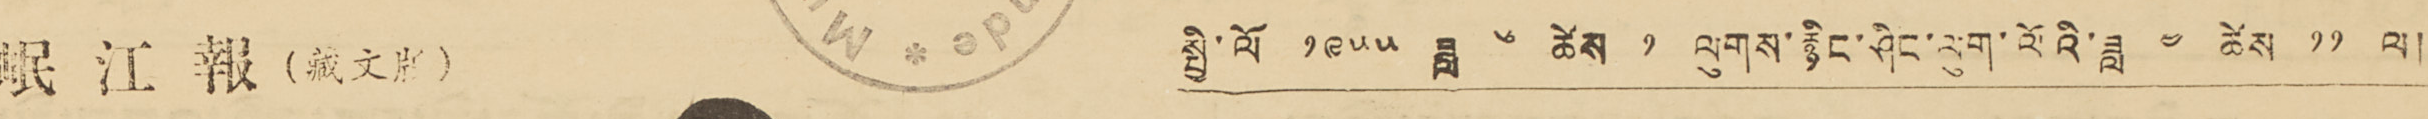岷 江 報 （藏文版） སྤྱི་ལོ་ ༡༩༥༥ ཟླ ༦ ཚེས ༡ ལུགས་རྙིན་ཤིང་ལུག་ལོའི་ཟླ ༤ ཚེས ༡༡ ལ།
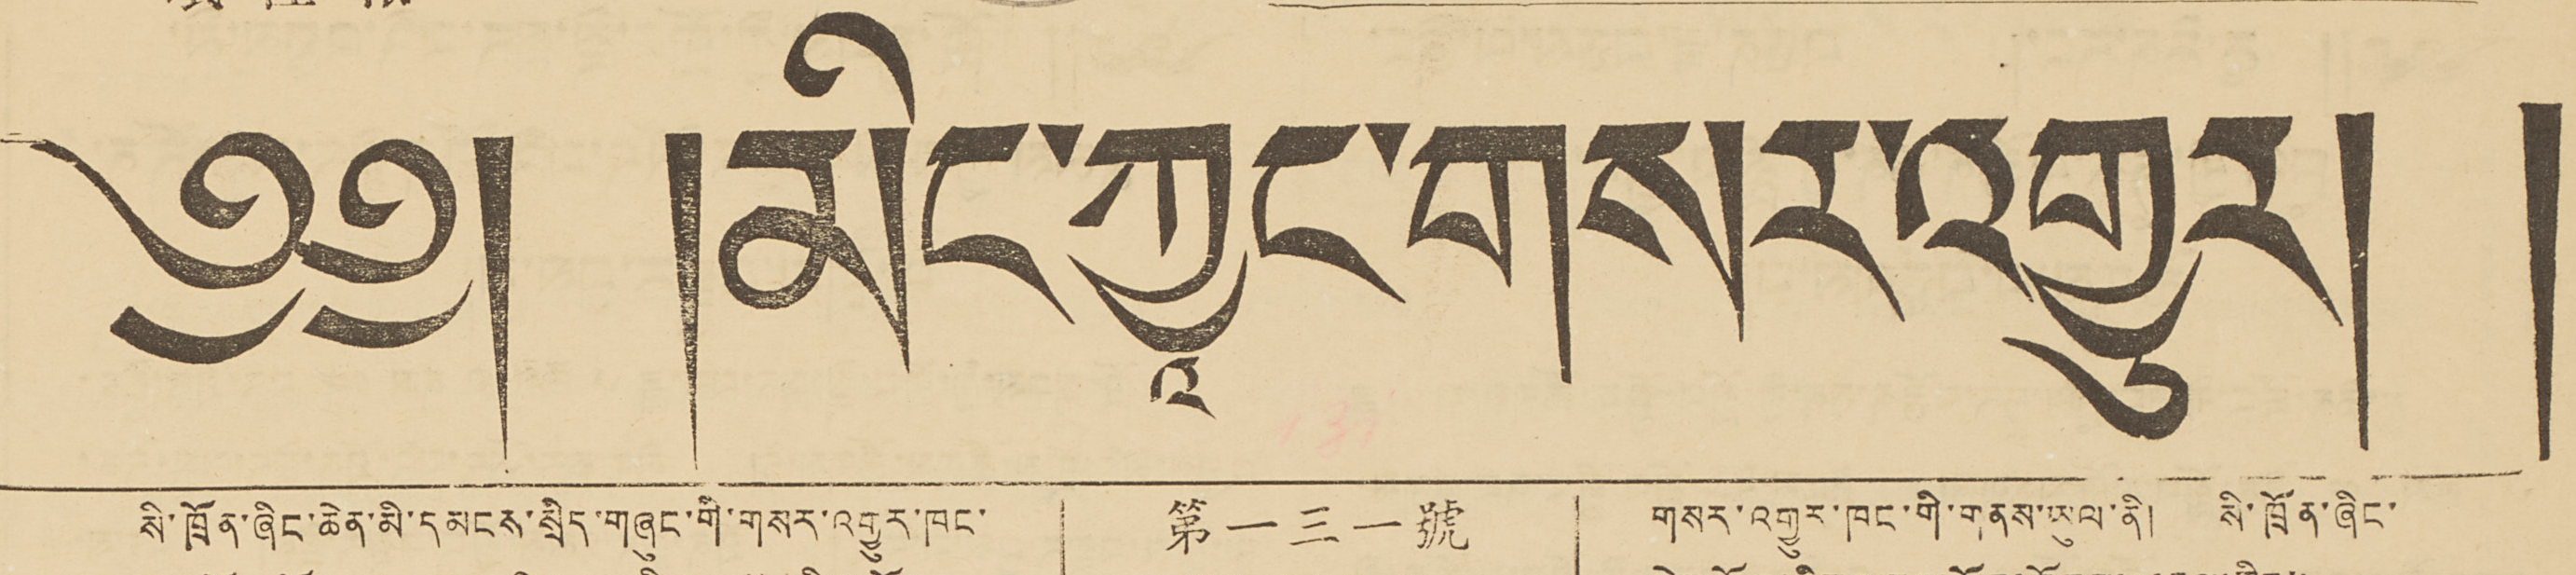༄༅། །མིང་ཀྱཱང་གསར་འགྱུར། །
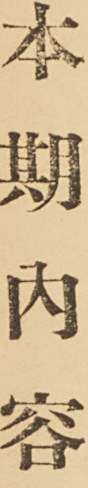本 期 內 容
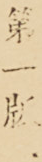第一版：
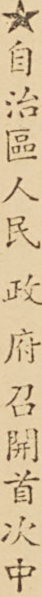★自治區人民 政 府 召開首次中
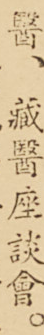醫、藏醫座談會。
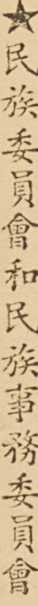★民族委員會和民族事務委員會
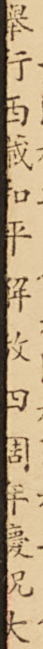舉行西藏和平 解 放 四周年慶祝大
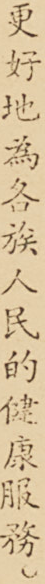更好地爲各族人民的健康服務。
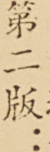第二版：
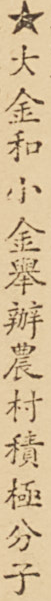★大金和小金舉辦農村積極分子
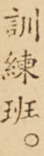訓練班。
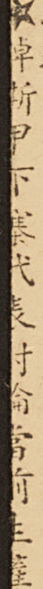★綽斯甲下寨代表討論當前生產
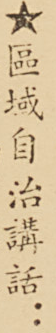★區域自治講話：
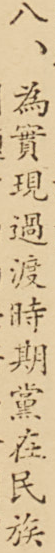八、爲實現過渡時期黨在民族
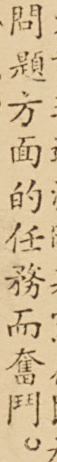問題方面的任務而奮鬥。
